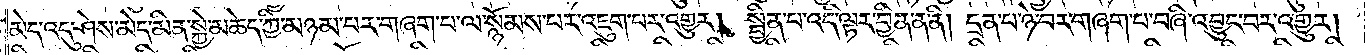མེད་འདུ་ཤེས་མེད་མིན་སྐྱེ་མཆེད་ཀྱི་མཉམ་པར་གཞག་པ་ལ་སྙོམས་པར་འཇུག་པར་འགྱུར། སྦྱིན་པ་འདི་ལྟར་བྱིན་ན་ནི། དྲན་པ་ཉེ་བར་གཞག་པ་བཞི་འབྱུང་བར་འགྱུར།
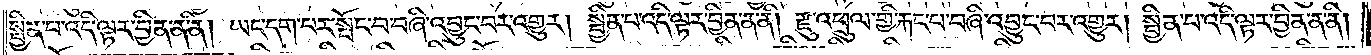སྦྱིན་པ་འདི་ལྟར་བྱིན་ན་ནི། ཡང་དག་པར་སྤོང་བ་བཞི་འབྱུང་བར་འགྱུར། སྦྱིན་པ་འདི་ལྟར་བྱིན་ན་ནི། རྫུ་འཕྲུལ་གྱི་རྐང་པ་བཞི་འབྱུང་བར་འགྱུར། སྦྱིན་པ་འདི་ལྟར་བྱིན་ན་ནི།
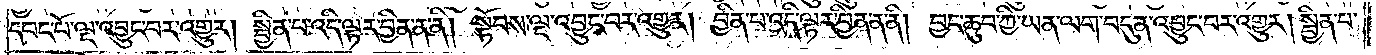དབང་པོ་ལྔ་འབྱུང་བར་འགྱུར། སྦྱིན་པ་འདི་ལྟར་བྱིན་ན་ནི། སྟོབས་ལྔ་འབྱུང་བར་འགྱུར། བྱིན་པ་འདི་ལྟར་བྱིན་ན་ནི། བྱང་ཆུབ་ཀྱི་ཡན་ལག་བདུན་འབྱུང་བར་འགྱུར། སྦྱིན་པ་
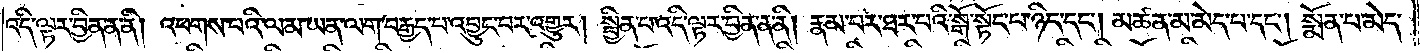འདི་ལྟར་བྱིན་ན་ནི། འཕགས་པའི་ལམ་ཡན་ལག་བརྒྱད་པ་འབྱུང་བར་འགྱུར། སྦྱིན་པ་འདི་ལྟར་བྱིན་ན་ནི། རྣམ་པར་ཐར་བའི་སྒོ་སྟོང་པ་ཉིད་དང༌། མཚན་མ་མེད་པ་དང༌། སྨོན་པ་མེད་
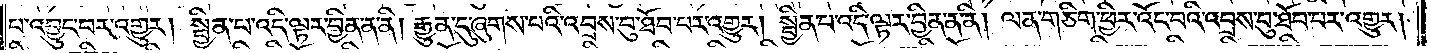པ་འབྱུང་བར་འགྱུར། སྦྱིན་པ་འདི་ལྟར་བྱིན་ན་ནི། རྒྱུན་དུ་ཞུགས་པའི་འབྲས་བུ་ཐོབ་པར་འགྱུར། སྦྱིན་པ་འདི་ལྟར་བྱིན་ན་ནི། ལན་གཅིག་ཕྱིར་འོང་བའི་འབྲས་བུ་ཐོབ་པར་འགྱུར།
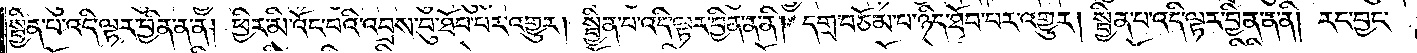སྦྱིན་པ་འདི་ལྟར་བྱིན་ན་ན། ཕྱིར་མི་འོང་བའི་འབྲས་བུ་ཐོབ་པར་འགྱུར། སྦྱིན་པ་འདི་ལྟར་བྱིན་ན་ནི། དགྲ་བཅོམ་པ་ཉིད་ཐོབ་པར་འགྱུར། སྦྱིན་པ་འདི་ལྟར་བྱིན་ན་ནི། རང་བྱང་
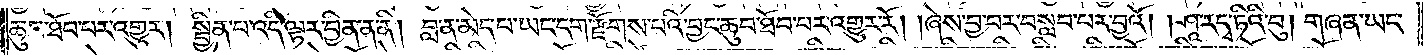ཆུབ་ཐོབ་པར་འགྱུར། སྦྱིན་པ་འདི་ལྟར་བྱིན་ན་ནི། བླ་ན་མེད་པ་ཡང་དག་རྫོགས་པའི་བྱང་ཆུབ་ཐོབ་བར་འགྱུར་རོ། །ཞེས་བྱ་བར་བསླབ་པར་བྱའོ། །ཤཱ་ར་དྭ་ཏིའི་བུ། གཞན་ཡང་
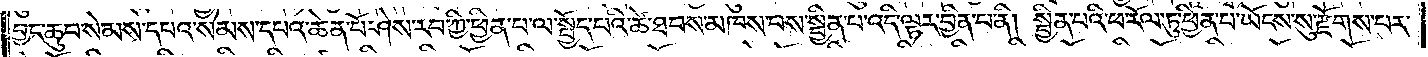བྱང་ཆུབ་སེམས་དཔའ་སེམས་དཔའ་ཆེན་པོ་ཤེས་རབ་ཀྱི་ཕྱིན་པ་ལ་སྤྱོད་པའི་ཚེ་ཐབས་མཁས་པས་སྦྱིན་པ་འདི་ལྟར་བྱིན་པ་ནི། སྦྱིན་པའི་ཕ་རོལ་ཏུ་ཕྱིན་པ་ཡོངས་སུ་རྫོགས་པར་
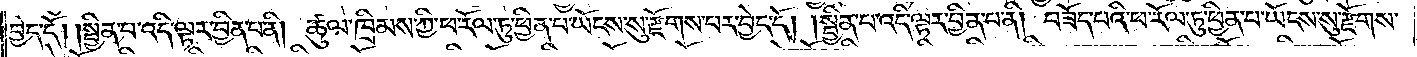བྱེད་དོ། །སྦྱིན་པ་འདི་ལྟར་བྱིན་པ་ནི། ཚུལ་ཁྲིམས་ཀྱི་ཕ་རོལ་ཏུ་ཕྱིན་པ་ཡོངས་སུ་རྫོགས་པར་བྱེད་དོ། །སྦྱིན་པ་འདི་ལྟར་བྱིན་པ་ནི། བཟོད་པའི་ཕ་རོལ་ཏུ་ཕྱིན་པ་ཡོངས་སུ་རྫོགས་
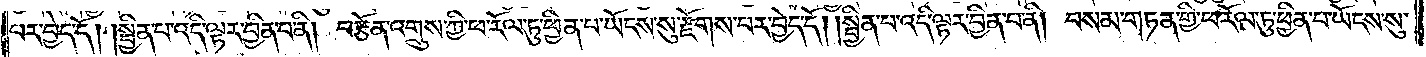པར་བྱེད་དོ། །སྦྱིན་པ་འདི་ལྟར་བྱིན་པ་ནི། བརྩོན་འགྲུས་ཀྱི་ཕ་རོལ་ཏུ་ཕྱིན་པ་ཡོངས་སུ་རྫོགས་པར་བྱེད་དོ། །སྦྱིན་པ་འདི་ལྟར་བྱིན་པ་ནི། བསམ་གཏན་གྱི་ཕ་རོལ་ཏུ་ཕྱིན་པ་ཡོངས་སུ་
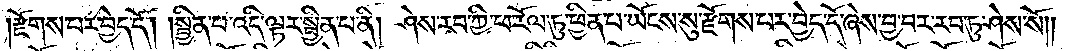རྫོགས་པར་བྱེད་དོ། །སྦྱིན་པ་འདི་ལྟར་སྦྱིན་པ་ནི། ཤེས་རབ་ཀྱི་ཕ་རོལ་ཏུ་ཕྱིན་པ་ཡོངས་སུ་རྫོགས་པར་བྱེད་དོ་ཞེས་བྱ་བར་རབ་ཏུ་ཤེས་སོ༎
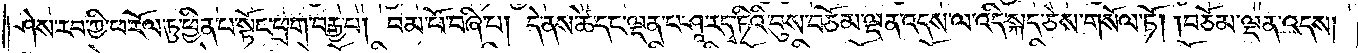ཤེས་རབ་ཀྱི་ཕ་རོལ་ཏུ་ཕྱིན་པ་སྟོང་ཕྲག་བརྒྱ་པ། བམ་པོ་བཞི་པ། དེ་ནས་ཚེ་དང་ལྡན་པ་ཤཱ་ར་དྭ་ཏིའི་བུས་བཅོམ་ལྡན་འདས་ལ་འདི་སྐད་ཅེས་གསོལ་ཏོ། །བཅོམ་ལྡན་འདས།
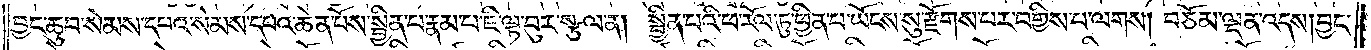བྱང་ཆུབ་སེམས་དཔའ་སེམས་དཔའ་ཆེན་པོས་སྦྱིན་པ་རྣམ་པ་ཇི་ལྟ་བུར་སྩལ་ན། སྦྱིན་པའི་ཕ་རོལ་ཏུ་ཕྱིན་པ་ཡོངས་སུ་རྫོགས་པར་བགྱིས་པ་ལགས། བཅོམ་ལྡན་འདས། བྱང་
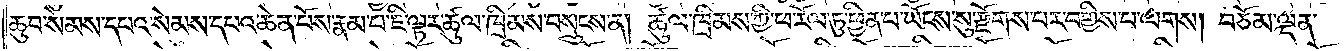ཆུབ་སེམས་དཔའ་སེམས་དཔའ་ཆེན་པོས་རྣམ་པ་ཇི་ལྟར་ཚུལ་ཁྲིམས་བསྲུངས་ན། ཚུལ་ཁྲིམས་ཀྱི་ཕ་རོལ་ཏུ་ཕྱིན་པ་ཡོངས་སུ་རྫོགས་པར་བགྱིས་པ་ལགས། བཅོམ་ལྡན་
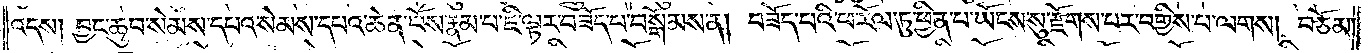འདས། བྱང་ཆུབ་སེམས་དཔའ་སེམས་དཔའ་ཆེན་པོས་རྣམ་པ་ཇི་ལྟར་བཟོད་པ་བསྒོམས་ན། བཟོད་པའི་ཕ་རོལ་ཏུ་ཕྱིན་པ་ཡོངས་སུ་རྫོགས་པར་བགྱིས་པ་ལགས། བཅོམ་
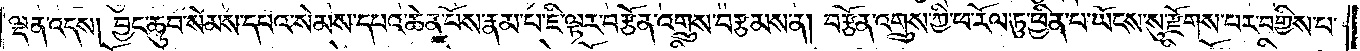ལྡན་འདས། བྱང་ཆུབ་སེམས་དཔའ་སེམས་དཔའ་ཆེན་པོས་རྣམ་པ་ཇི་ལྟར་བརྩོན་འགྲུས་བརྩམས་ན། བརྩོན་འགྲུས་ཀྱི་ཕ་རོལ་ཏུ་ཕྱིན་པ་ཡོངས་སུ་རྫོགས་པར་བགྱིས་པ་
